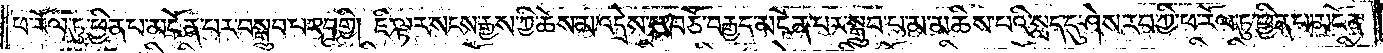ཕ་རོལ་ཏུ་ཕྱིན་པ་མངོན་པར་བསྒྲུབ་པར་བགྱི། ཇི་ལྟར་སངས་རྒྱས་ཀྱི་ཆོས་མ་འདྲེས་པ་བཅོ་བརྒྱད་མངོན་པར་སྒྲུབ་པ་མ་མཆིས་པའི་སླད་དུ་ཤེས་རབ་ཀྱི་ཕ་རོལ་ཏུ་ཕྱིན་པ་མངོན་
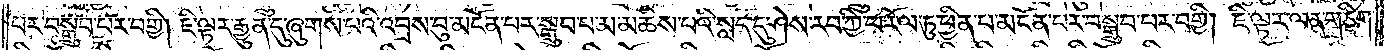པར་བསྒྲུབ་པར་བགྱི། ཇི་ལྟར་རྒྱུན་དུ་ཞུགས་པའི་འབྲས་བུ་མངོན་པར་སྒྲུབ་པ་མ་མཆིས་པའི་སླད་དུ་ཤེས་རབ་ཀྱི་ཕ་རོལ་ཏུ་ཕྱིན་པ་མངོན་པར་བསྒྲུབ་པར་བགྱི། ཇི་ལྟར་ལན་གཅིག་
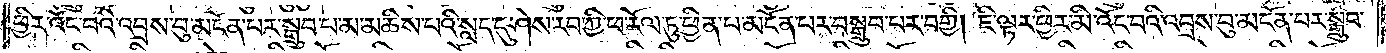ཕྱིར་འོང་བའི་འབྲས་བུ་མངོན་པར་སྒྲུབ་པ་མ་མཆིས་པའི་སླད་དུ་ཤེས་རབ་ཀྱི་ཕ་རོལ་ཏུ་ཕྱིན་པ་མངོན་པར་བསྒྲུབ་པར་བགྱི། ཇི་ལྟར་ཕྱིར་མི་འོང་བའི་འབྲས་བུ་མངོན་པར་སྒྲུབ་
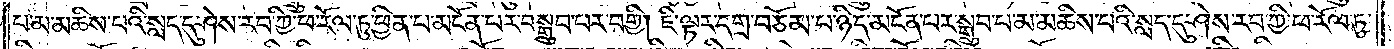པ་མ་མཆིས་པའི་སླད་དུ་ཤེས་རབ་ཀྱི་ཕ་རོལ་ཏུ་ཕྱིན་པ་མངོན་པར་བསྒྲུབ་པར་བགྱི། ཇི་ལྟར་དགྲ་བཅོམ་པ་ཉིད་མངོན་པར་སྒྲུབ་པ་མ་མཆིས་པའི་སླད་དུ་ཤེས་རབ་ཀྱི་ཕ་རོལ་ཏུ་
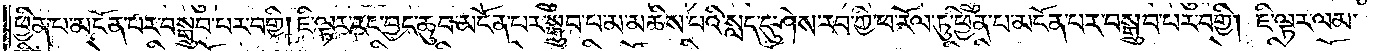ཕྱིན་པ་མངོན་པར་བསྒྲུབ་པར་བགྱི། ཇི་ལྟར་རང་བྱང་ཆུབ་མངོན་པར་སྒྲུབ་པ་མ་མཆིས་པའི་སླད་དུ་ཤེས་རབ་ཀྱི་ཕ་རོལ་ཏུ་ཕྱིན་པ་མངོན་པར་བསྒྲུབ་པར་བགྱི། ཇི་ལྟར་ལམ་
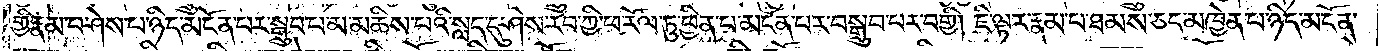གྱི་རྣམ་པ་ཤེས་པ་ཉིད་མངོན་པར་སྒྲུབ་པ་མ་མཆིས་པའི་སླད་དུ་ཤེས་རབ་ཀྱི་ཕ་རོལ་ཏུ་ཕྱིན་པ་མངོན་པར་བསྒྲུབ་པར་བགྱི། ཇི་ལྟར་རྣམ་པ་ཐམས་ཅད་མཁྱེན་པ་ཉིད་མངོན་
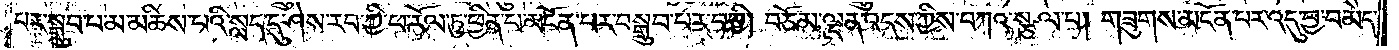པར་སྒྲུབ་པ་མ་མཆིས་པའི་སླད་དུ་ཤེས་རབ་ཀྱི་ཕ་རོལ་ཏུ་ཕྱིན་པ་མངོན་པར་བསྒྲུབ་པར་བགྱི། བཅོམ་ལྡན་འདས་ཀྱིས་བཀའ་སྩལ་པ། གཟུགས་མངོན་པར་འདུ་བྱ་བ་མེད་
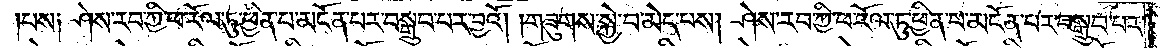པས༑ ཤེས་རབ་ཀྱི་ཕ་རོལ་ཏུ་ཕྱིན་པ་མངོན་པར་བསྒྲུབ་པར་བྱའོ། །གཟུགས་སྐྱེ་བ་མེད་པས། ཤེས་རབ་ཀྱི་ཕ་རོལ་ཏུ་ཕྱིན་པ་མངོན་པར་བསྒྲུབ་པར་
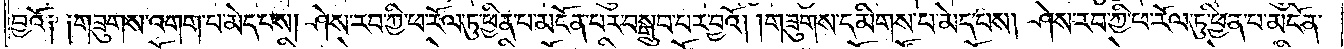བྱའོ༑ ༑གཟུགས་འགག་པ་མེད་པས། ཤེས་རབ་ཀྱི་ཕ་རོལ་ཏུ་ཕྱིན་པ་མངོན་པར་བསྒྲུབ་པར་བྱའོ། །གཟུགས་དམིགས་པ་མེད་པས། ཤེས་རབ་ཀྱི་ཕ་རོལ་ཏུ་ཕྱིན་པ་མངོན་
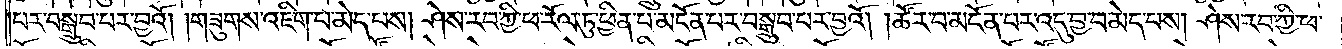པར་བསྒྲུབ་པར་བྱའོ། །གཟུགས་འཇིག་པ་མེད་པས། ཤེས་རབ་ཀྱི་ཕ་རོལ་ཏུ་ཕྱིན་པ་མངོན་པར་བསྒྲུབ་པར་བྱའོ། །ཚོར་བ་མངོན་པར་འདུ་བྱ་བ་མེད་པས། ཤེས་རབ་ཀྱི་ཕ་
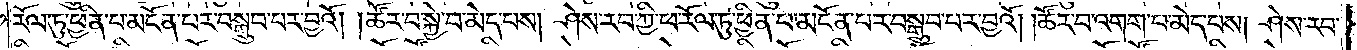རོལ་ཏུ་ཕྱིན་པ་མངོན་པར་བསྒྲུབ་པར་བྱའོ། །ཚོར་བ་སྐྱེ་བ་མེད་པས། ཤེས་རབ་ཀྱི་ཕ་རོལ་ཏུ་ཕྱིན་པ་མངོན་པར་བསྒྲུབ་པར་བྱའོ། །ཚོར་བ་འགག་པ་མེད་པས། ཤེས་རབ་
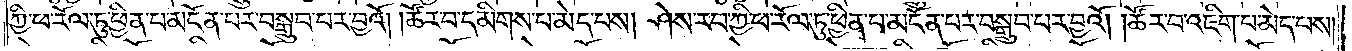ཀྱི་ཕ་རོལ་ཏུ་ཕྱིན་པ་མངོན་པར་བསྒྲུབ་པར་བྱའོ། །ཚོར་བ་དམིགས་པ་མེད་པས། ཤེས་རབ་ཀྱི་ཕ་རོལ་ཏུ་ཕྱིན་པ་མངོན་པར་བསྒྲུབ་པར་བྱའོ། །ཚོར་བ་འཇིག་པ་མེད་པས།
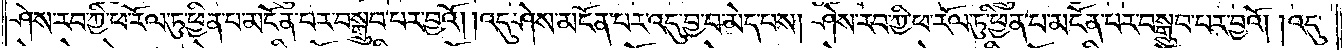ཤེས་རབ་ཀྱི་ཕ་རོལ་ཏུ་ཕྱིན་པ་མངོན་པར་བསྒྲུབ་པར་བྱའོ། །འདུ་ཤེས་མངོན་པར་འདུ་བྱ་བ་མེད་པས། ཤེས་རབ་ཀྱི་ཕ་རོལ་ཏུ་ཕྱིན་པ་མངོན་པར་བསྒྲུབ་པར་བྱའོ། །འདུ་
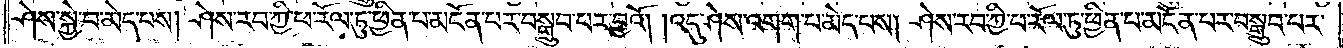ཤེས་སྐྱེ་བ་མེད་པས། ཤེས་རབ་ཀྱི་ཕ་རོལ་ཏུ་ཕྱིན་པ་མངོན་པར་བསྒྲུབ་པར་བྱའོ། །འདུ་ཤེས་འགག་པ་མེད་པས། ཤེས་རབ་ཀྱི་ཕ་རོལ་ཏུ་ཕྱིན་པ་མངོན་པར་བསྒྲུབ་པར་
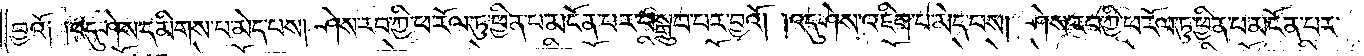བྱའོ༑ ༑འདུ་ཤེས་དམིགས་པ་མེད་པས། ཤེས་རབ་ཀྱི་ཕ་རོལ་ཏུ་ཕྱིན་པ་མངོན་པར་བསྒྲུབ་པར་བྱའོ། །འདུ་ཤེས་འཇིག་པ་མེད་པས། ཤེས་རབ་ཀྱི་ཕ་རོལ་ཏུ་ཕྱིན་པ་མངོན་པར་
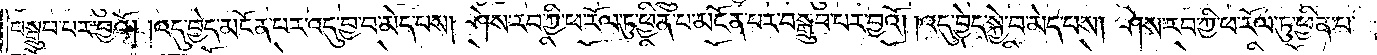བསྒྲུབ་པར་བྱའོ། །འདུ་བྱེད་མངོན་པར་འདུ་བྱ་བ་མེད་པས། ཤེས་རབ་ཀྱི་ཕ་རོལ་ཏུ་ཕྱིན་པ་མངོན་པར་བསྒྲུབ་པར་བྱའོ། །འདུ་བྱེད་སྐྱེ་བ་མེད་པས། ཤེས་རབ་ཀྱི་ཕ་རོལ་ཏུ་ཕྱིན་པ་
